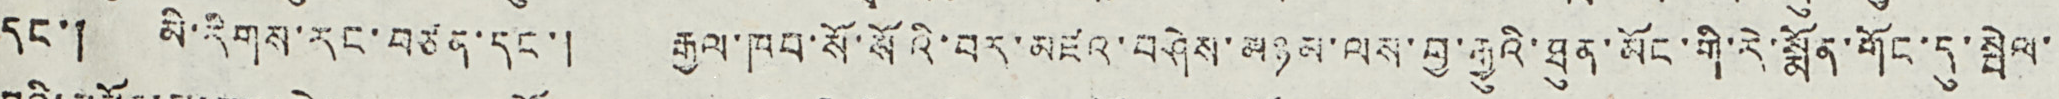དང་། མི་རིགས་རང་བཙན་དང་། རྒྱལ་ཁབ་སོ་སོའི་བར་མཛའ་བཤེས་མཉམ་ལས་བྱ་རྒྱུའི་ཐུན་མོང་གི་རེ་སྨོན་གོང་དུ་སྤེལ་
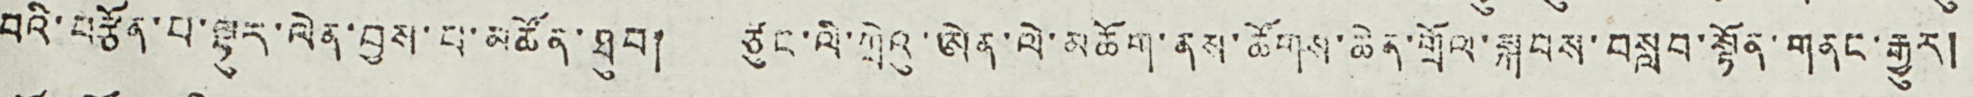བའི་བརྩོན་པ་ལྷུར་ལེན་བྱས་པ་མཚོན་ཐུབ། ཙུང་ལི་ཀྲེའུ་ཨེན་ལེ་མཆོག་ནས་ཚོགས་ཆེན་གྲོལ་སྐབས་བསླབ་སྟོན་གནང་རྒྱུར།
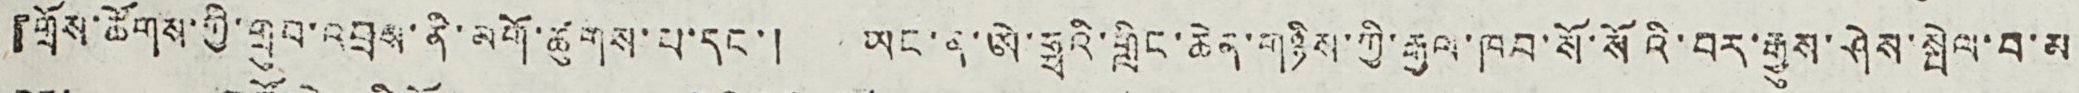『གྲོས་ཚོགས་ཀྱི་གྲུབ་འབྲས་ནི་མགོ་ཚུགས་པ་དང་། ཡང་ན་ཨེ་ཧྥའི་གླིང་ཆེན་གཉིས་ཀྱི་རྒྱལ་ཁབ་སོ་སོའི་བར་རྒྱུས་ཤེས་སྤེལ་བ་མ
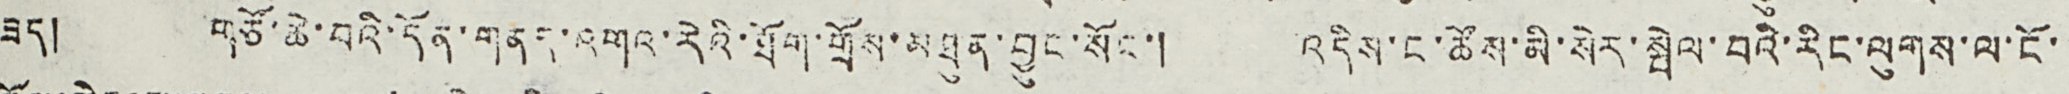ཟད། གཙོ་ཆེ་བའི་དོན་གནད་འགའ་རེའི་ཐོག་གྲོས་མཐུན་བྱུང་སོང་། འདིས་ང་ཚོས་མི་སེར་སྤེལ་བའི་རིང་ལུགས་ལ་ངོ་
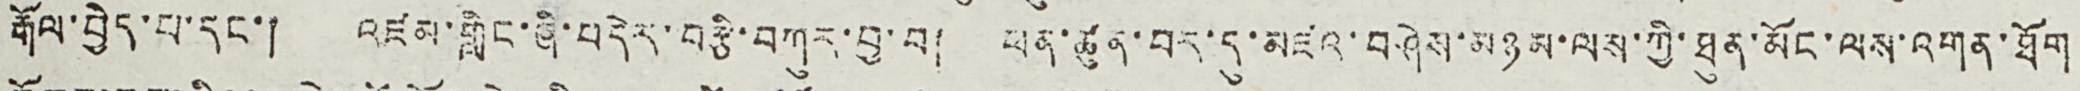རྒོལ་བྱེད་པ་དང་། འཛམ་གླིང་ཞི་བདེར་བརྩི་བཀུར་བྱ་བ། ཕན་ཚུན་བར་དུ་མཛའ་བཤེས་མཉམ་ལས་ཀྱི་ཐུན་མོང་ལས་འགན་ཐོག
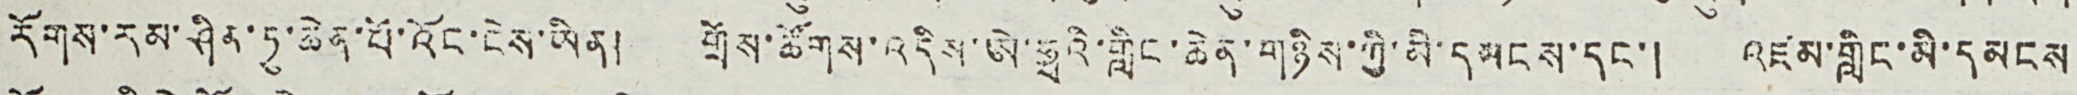རོགས་རམ་ཤིན་ཏུ་ཆེན་པོ་འོང་ངེས་ཡིན། གྲོས་ཚོགས་འདིས་ཨེ་ཧྥའི་གླིང་ཆེན་གཉིས་ཀྱི་མི་དམངས་དང་། འཛམ་གླིང་མི་དམངས
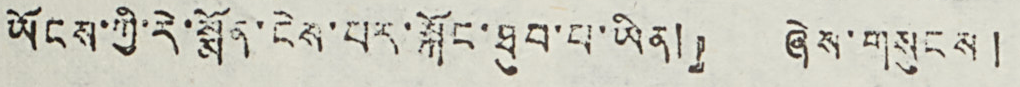ཡོངས་ཀྱི་རེ་སྨོན་ངེས་པར་སྐོང་ཐུབ་པ་ཡིན།』 ཞེས་གསུངས །
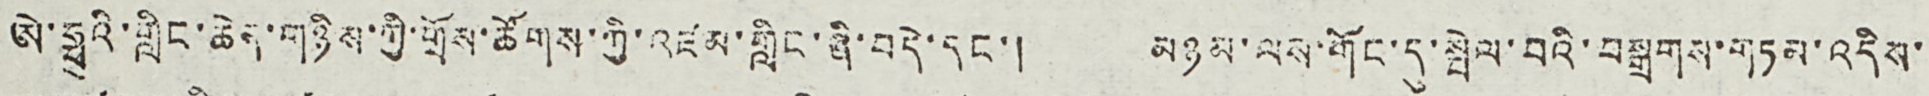ཨེ་ཧྥའི་གླིང་ཆེན་གཉིས་ཀྱི་གྲོས་ཚོགས་ཀྱི་འཛམ་གླིང་ཞི་བདེ་དང་། མཉམ་ལས་གོང་དུ་སྤེལ་བའི་བསྒྲགས་གཏམ་འདིས་
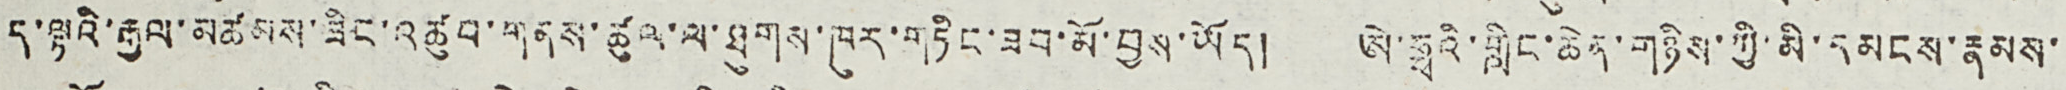ད་ལྟའི་རྒྱལ་མཚམས་ཟིང་འཚུབ་གནས་ཚུལ་ལ་ཐུགས་ཁུར་གཏིང་ཟབ་མོ་བྱས་ཡོད། ཨེ་ཧྥའི་གླིང་ཆེན་གཉིས་ཀྱི་མི་དམངས་རྣམས་
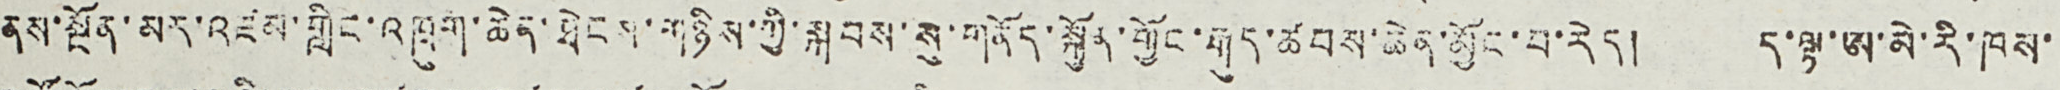ནས་སྔོན་མར་འཛམ་གླིང་འཁྲུག་ཆེན་ཐེངས་གཉིས་ཀྱི་སྐབས་སུ་གནོད་སྐྱོན་གྱོང་རྒུད་ཚབས་ཆེན་མྱོང་བ་རེད། ད་ལྟ་ཨ་མེ་རི་ཁས་
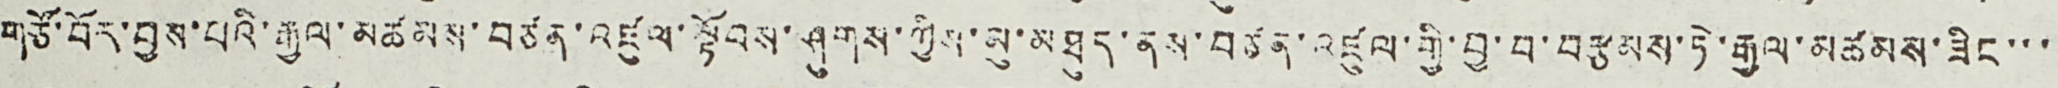གཙོ་བོར་བྱས་པའི་རྒྱལ་མཚམས་བཙན་འཛུལ་སྟོབས་ཤུགས་ཀྱིས་མུ་མཐུད་ནས་བཙན་འཛུལ་གྱི་བྱ་བ་བརྩམས་ཏེ་རྒྱལ་མཚམས་ཟིང་་་
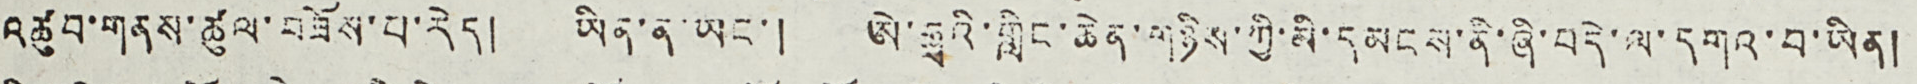འཚུབ་གནས་ཚུལ་བཟོས་པ་རེད། ཡིན་ན་ཡང་། ཨེ་ཧྥའི་གླིང་ཆེན་གཉིས་ཀྱི་མི་དམངས་ནི་ཞི་བདེ་ལ་དགའ་བ་ཡིན།
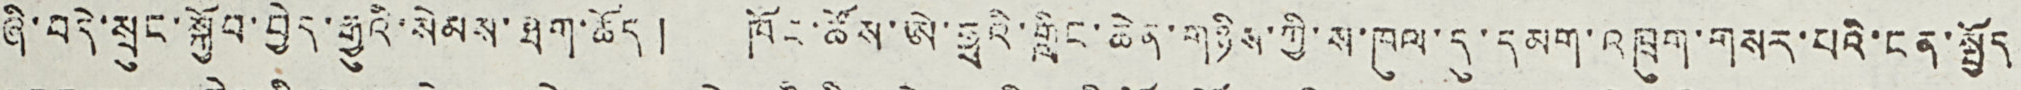ཞི་བདེ་སྲུང་སྐྱོབ་བྱེད་རྒྱུའི་སེམས་ཐག་ཆོད། ཁོང་ཚོས་ཨེ་ཧྥའི་གླིང་ཆེན་གཉིས་ཀྱི་ས་ཁུལ་དུ་དམག་འཁྲུག་གསར་པའི་ངན་སྤྱོད
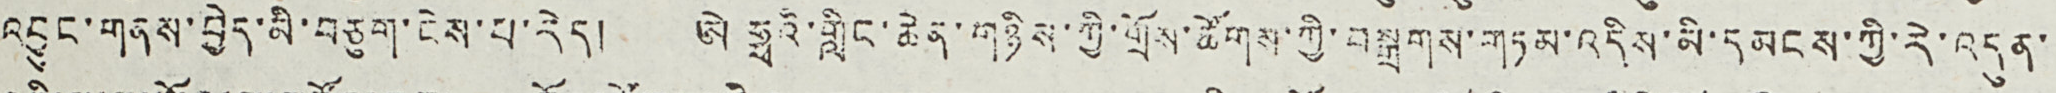འབྱུང་གནས་བྱེད་མི་བཅུག་ངེས་པ་རེད། ཨེ ཧྥའི་གླིང་ཆེན་གཉིས་ཀྱི་གྲོས་ཚོགས་ཀྱི་བསྒྲགས་གཏམ་འདིས་མི་དམངས་ཀྱི་རེ་འདུན་
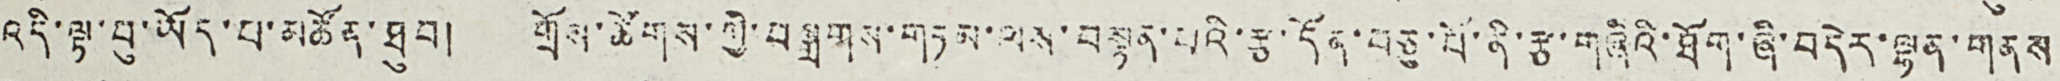འདི་ལྟ་བུ་ཡོད་པ་མཚོན་ཐུབ། གྲོས་ཚོགས་ཀྱི་བསྒྲགས་གཏམ་ལས་བསྟན་པའི་རྩ་དོན་བཅུ་པོ་ནི་རྩ་གཞིའི་ཐོག་ཞི་བདེར་ལྷན་གནས
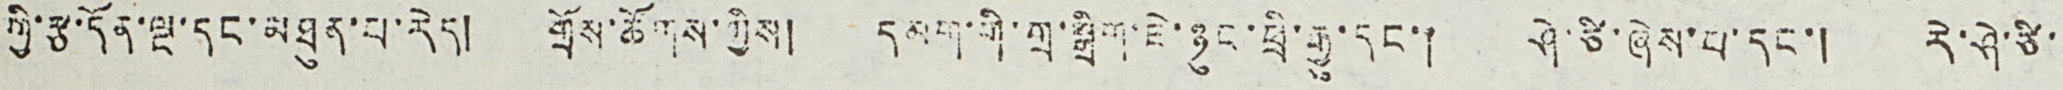ཀྱི་རྩ་དོན་ལྔ་དང་མཐུན་པ་རེད། གྲོས་ཚོགས་ཀྱིས། དམག་གི་གྲ་སྒྲིག་ཇེ་ཉུང་ཕྲི་རྒྱུ་དང་། ཤེ་ཙི་ཞེས་པ་དང་། རེ་ཤེ་ཙི་
